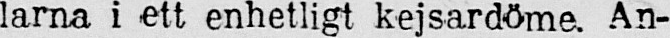larna i ett enhetligt kejsardöme. An-
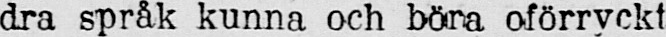dra språk kunna och böra oförryckt
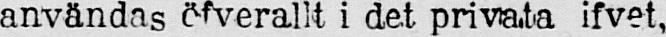användas öfverallt i det privata ifvet,
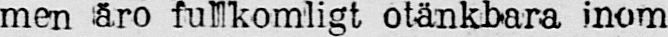men äro fullkomligt otänkbara inom
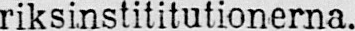riksinstititutionerna.
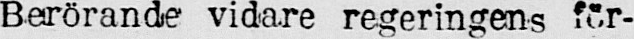Berörande vidare regeringens för-
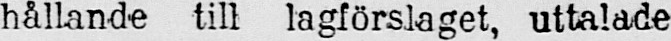hållande till lagförslaget, uttalade
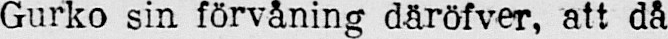Gurko sin förvåning däröfver, att då
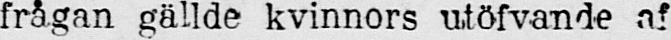frågan gällde kvinnors utöfvande af
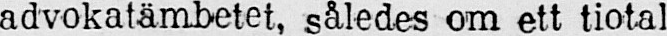advokatämbetet, således om ett tiotal
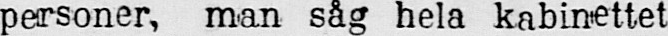personer, man såg hela kabinettet
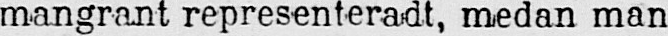mangrant representeradt, medan man
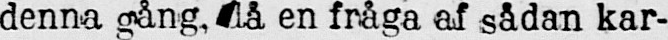denna gång, Hå en fråga af sådan kar-
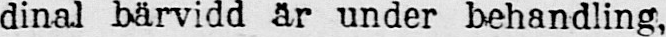dinal bärvidd är under behandling,
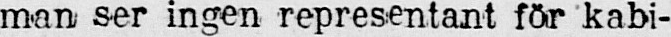man ser ingen representant för kabi-
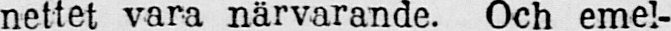nettet vara närvarande. Och emel-
